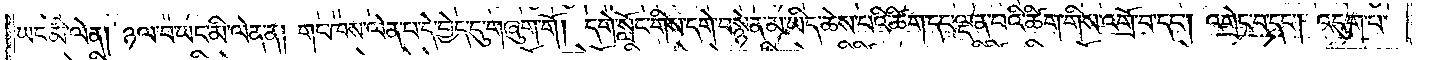ཡང་མི་ལེན། ཉལ་བ་ཡང་མི་ལེན་ན། གང་ཁས་ལེན་པ་དེ་བྱེད་དུ་གཞུག་གོ། དགེ་སློང་གིས་དགེ་བསྙེན་མ་ཡིད་ཆེས་པའི་ཚིག་དང་ལྡན་པའི་ཚིག་གིས་འགྲོ་བ་དང༌། འགྲེང་བ་དང༌། འདུག་པ་
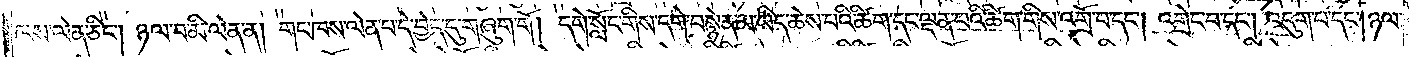ཁས་ལེན་ཅིང༌། ཉལ་བ་མི་ལེན་ན། གང་ཁས་ལེན་པ་དེ་བྱེད་དུ་གཞུག་གོ། དགེ་སློང་གིས་དགེ་བསྙེན་མ་ཡིད་ཆེས་པའི་ཚིག་དང་ལྡན་པའི་ཚིག་གིས་འགྲོ་བ་དང༌། འགྲེང་བ་དང༌། འདུག་པ་དང༌། ཉལ་
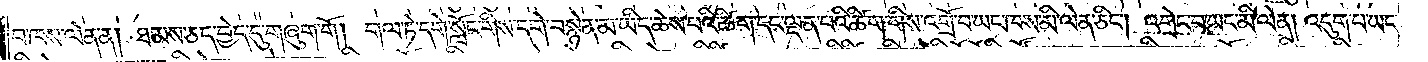བ་ཁས་ལེན་ན། ཐམས་ཅད་བྱེད་དུ་གཞུག་གོ། གལ་ཏེ་དགེ་སློང་གིས་དགེ་བསྙེན་མ་ཡིད་ཆེས་པའི་ཚིག་དང་ལྡན་པའི་ཚིག་གིས་འགྲོ་བ་ཡང་ཁས་མི་ལེན་ཅིང༌། འགྲེང་བ་ཡང་མི་ལེན། འདུག་པ་ཡང་
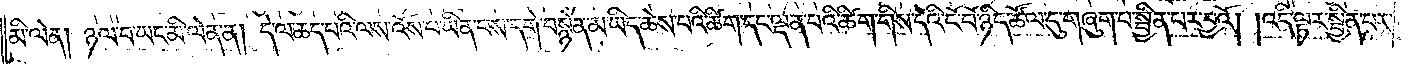མི་ལེན། ཉལ་བ་ཡང་མི་ལེན་ན། དེ་ལ་ཆད་པའི་ལས་འོས་པ་ཡིན་པས་དགེ་བསྙེན་མ་ཡིད་ཆེས་པའི་ཚིག་དང་ལྡན་པའི་ཚིག་གིས་དེའི་ངོ་བོ་ཉིད་ཚོལ་དུ་གཞུག་པ་སྦྱིན་པར་བྱའོ། །འདི་ལྟར་སྦྱིན་པར་
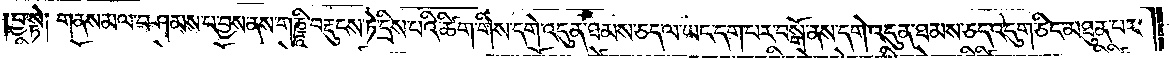བྱ་སྟེ། གནས་མལ་བཤམས་པ་བྱས་ནས་གཎྜཱི་བརྡུངས་ཏེ་དྲིས་པའི་ཚིག་གིས་དགེ་འདུན་ཐམས་ཅད་ལ་ཡང་དག་པར་བསྒོ་ནས་དགེ་འདུན་ཐམས་ཅད་འདུག་ཅིང་མཐུན་པར་
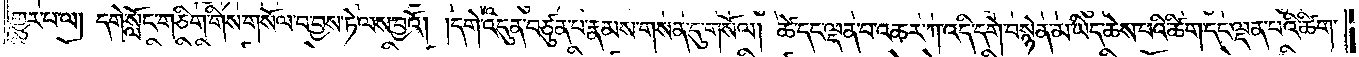གྱུར་པ་ལ། དགེ་སློང་གཅིག་གིས་གསོལ་བ་བྱས་ཏེ་ལས་བྱའོ། །དགེ་འདུན་བཙུན་པ་རྣམས་གསན་དུ་གསོལ། ཚེ་དང་ལྡན་པ་འཆར་ཀ་འདི་དགེ་བསྙེན་མ་ཡིད་ཆེས་པའི་ཚིག་དང་ལྡན་པའི་ཚིག་
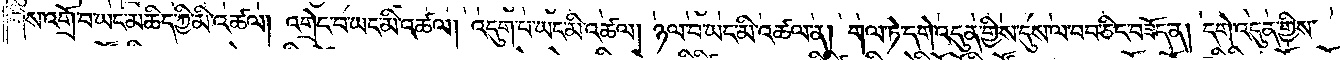གིས་འགྲོ་བ་ཡང་མཆིད་ཀྱི་མི་འཚལ། འགྲེང་བ་ཡང་མི་འཚལ། འདུག་པ་ཡང་མི་འཚལ། ཉལ་བ་ཡང་མི་འཚལ་ན། གལ་ཏེ་དགེ་འདུན་གྱིས་དུས་ལ་བབ་ཅིང་བཟོད་ན། དགེ་འདུན་གྱིས་
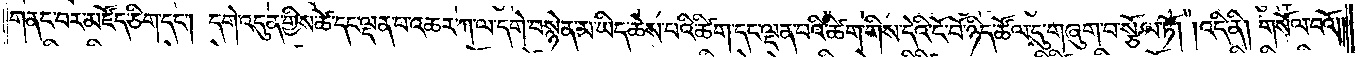གནང་བར་མཛོད་ཅིག་དང༌། དགེ་འདུན་གྱིས་ཚེ་དང་ལྡན་པ་འཆར་ཀ་ལ་དགེ་བསྙེན་མ་ཡིད་ཆེས་པའི་ཚིག་དང་ལྡན་པའི་ཚིག་གིས་དེའི་ངོ་བོ་ཉིད་ཚོལ་དུ་གཞུག་བ་སྩོལ་ཏོ། །འདི་ནི། གསོལ་བའོ༎
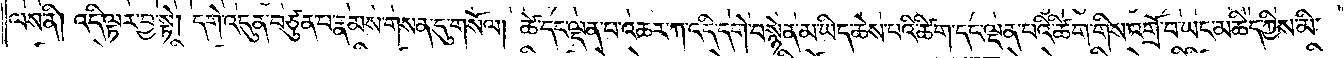ལས་ནི། འདི་ལྟར་བྱ་སྟེ། དགེ་འདུན་བཙུན་པ་རྣམས་གསན་དུ་གསོལ། ཚེ་དང་ལྡན་པ་འཆར་ཀ་འདི་དགེ་བསྙེན་མ་ཡིད་ཆེས་པའི་ཚིག་དང་ལྡན་པའི་ཚིག་གིས་འགྲོ་བ་ཡང་མཆིད་ཀྱིས་མི་
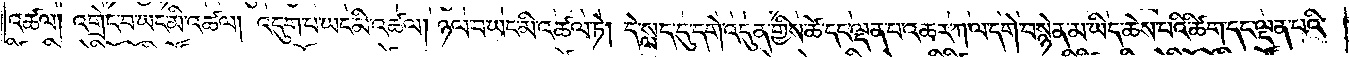འཚལ། འགྲེང་བ་ཡང་མི་འཚལ། འདུག་པ་ཡང་མི་འཚལ། ཉལ་བ་ཡང་མི་འཚལ་ཏེ། དེ་སླད་དུ་དགེ་འདུན་གྱིས་ཚེ་དང་ལྡན་པ་འཆར་ཀ་ལ་དགེ་བསྙེན་མ་ཡིད་ཆེས་པའི་ཚིག་དང་ལྡན་པའི་
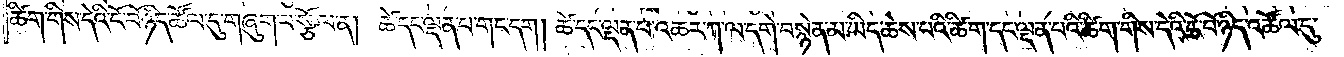ཚིག་གིས་དེའི་ངོ་བོ་ཉིད་ཚོལ་དུ་གཞུག་པ་སྩོལ་ན། ཚེ་དང་ལྡན་པ་གང་དག ། ཚེ་དང་ལྡན་པ་འཆར་ཀ་ལ་དགེ་བསྙེན་མ་ཡིད་ཆེས་པའི་ཚིག་དང་ལྡན་པའི་ཚིག་གིས་དེའི་ངོ་བོ་ཉིད་འཚོལ་དུ་
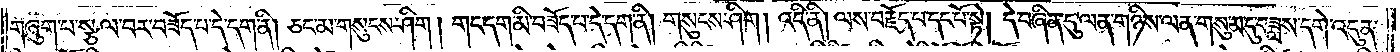གཞུག་པ་སྩལ་བར་བཟོད་པ་དེ་དག་ནི། ཅང་མ་གསུངས་ཤིག ། གང་དག་མི་བཟོད་པ་དེ་དག་ནི། གསུངས་ཤིག ། འདི་ནི། ལས་བརྗོད་པ་དང་པོ་སྟེ། དེ་བཞིན་དུ་ལན་གཉིས་ལན་གསུམ་དུ་བཟླས་དགེ་འདུན་
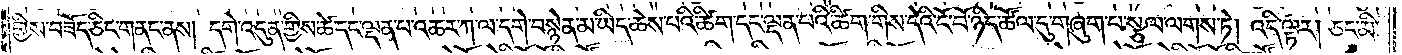གྱིས་བཟོད་ཅིང་གནང་ནས། དགེ་འདུན་གྱིས་ཚེ་དང་ལྡན་པ་འཆར་ཀ་ལ་དགེ་བསྙེན་མ་ཡིད་ཆེས་པའི་ཚིག་དང་ལྡན་པའི་ཚིག་གིས་དེའི་ངོ་བོ་ཉིད་ཚོལ་དུ་གཞུག་པ་སྩལ་ལགས་ཏེ། འདི་ལྟར། ཅང་མི་
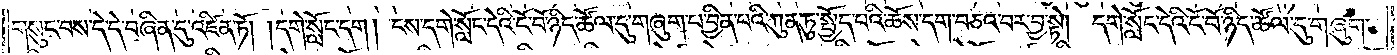གསུང་བས་དེ་དེ་བཞིན་དུ་འཛིན་ཏོ། །དགེ་སློང་དག ། ངས་དགེ་སློང་དེའི་ངོ་བོ་ཉིད་ཚོལ་དུ་གཞུག་པ་བྱིན་པའི་ཀུན་ཏུ་སྤྱོད་པའི་ཆོས་དག་བཅའ་བར་བྱ་སྟེ། དགེ་སློང་དེའི་ངོ་བོ་ཉིད་ཚོལ་དུ་གཞུག་
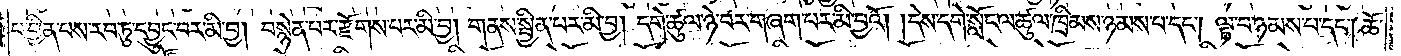པ་བྱིན་པས་རབ་ཏུ་དབྱུང་བར་མི་བྱ། བསྙེན་པར་རྫོགས་པར་མི་བྱ། གནས་སྦྱིན་པར་མི་བྱ། དགེ་ཚུལ་ཉེ་བར་གཞག་པར་མི་བྱའོ། །དེས་དགེ་སློང་ལ་ཚུལ་ཁྲིམས་ཉམས་པ་དང༌། ལྟ་བ་ཉམས་པ་དང༌། ཆོ་
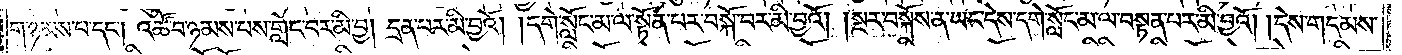ག་ཉམས་པ་དང༌། འཚོ་བ་ཉམས་པས་གླེང་བར་མི་བྱ། དྲན་པར་མི་བྱའོ། །དགེ་སློང་མ་ལ་སྟོན་པར་བསྐོ་བར་མི་བྱའོ། །སྔར་བསྐོས་ན་ཡང་དེས་དགེ་སློང་མ་ལ་བསྟན་པར་མི་བྱའོ། །དེས་གདམས་
